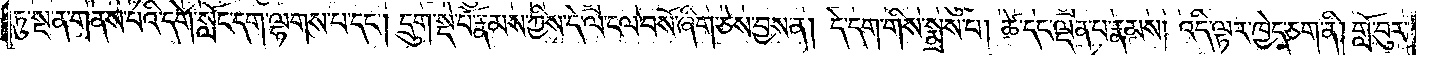ཏུ་སྔ་ན་གནས་པའི་དགེ་སློང་དག་ལྷགས་པ་དང༌། དྲུག་སྡེ་པོ་རྣམས་ཀྱིས་དེ་ལ་ངལ་བསོ་ཞིག་ཅེས་བྱས་ན། དེ་དག་གིས་སྨྲས་པ། ཚེ་དང་ལྡན་པ་རྣམས། འདི་ལྟར་ཁྱེད་ཅག་ནི། གློ་བུར་
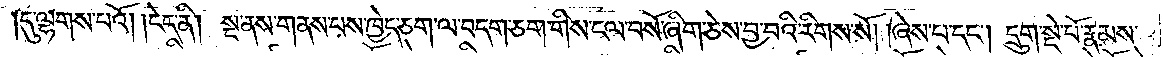དུ་ལྷགས་པའོ། །ངེད་ནི། སྔ་ནས་གནས་པས་ཁྱེད་ཅག་ལ་བདག་ཅག་གིས་ངལ་བསོ་ཞིག་ཅེས་བྱ་བའི་རིགས་སོ། །ཞེས་པ་དང༌། དྲུག་སྡེ་པོ་རྣམས་
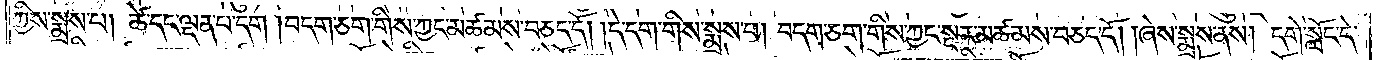ཀྱིས་སྨྲས་པ། ཚེ་དང་ལྡན་པ་དག །བདག་ཅག་གིས་ཀྱང་མཚམས་བཅད་དོ། །དེ་དག་གིས་སྨྲས་པ། བདག་ཅག་གིས་ཀྱང་སྔར་མཚམས་བཅད་དོ། །ཞེས་སྨྲས་ནས། དགེ་སློང་དེ་
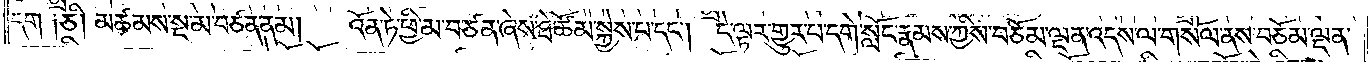དག ༑ཅི། མཚམས་སྔ་མ་བཙན་ནམ། འོན་ཏེ་ཕྱི་མ་བཙན་ཞེས་ཐེ་ཚོམ་སྐྱེས་པ་དང༌། དེ་ལྟར་གྱུར་པ་དགེ་སློང་རྣམས་ཀྱིས་བཅོམ་ལྡན་འདས་ལ་གསོལ་ནས་བཅོམ་ལྡན་
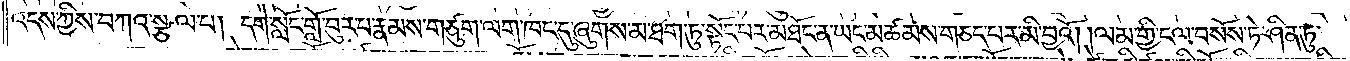འདས་ཀྱིས་བཀའ་སྩལ་པ། དགེ་སློང་གློ་བུར་པ་རྣམས་གཙུག་ལག་ཁང་དུ་ཞུགས་མ་ཐག་ཏུ་སྟོང་པར་མཐོང་ན་ཡང་མཚམས་གཅད་པར་མི་བྱའོ། །ལམ་གྱི་ངལ་བསོས་ཏེ་ཤིན་ཏུ་
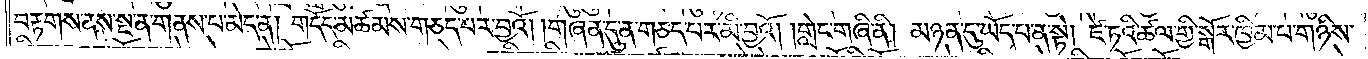བརྟགས་ནས་སྔ་ན་གནས་པ་མེད་ན། གདོད་མཚམས་གཅད་པར་བྱའོ། །གཞན་དུ་ན་གཅད་པར་མི་བྱའོ། །གླེང་གཞི་ནི། མཉན་དུ་ཡོད་པ་ན་སྟེ། ཛེ་ཏའི་ཚལ་གྱི་སྒོར་ཁྱིམ་པ་གཉིས་
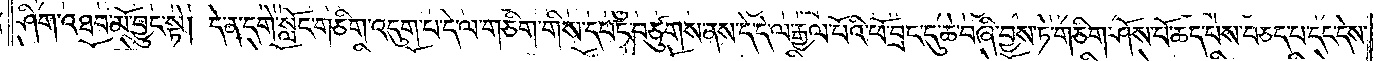ཤིག་འཐབ་མོ་བྱུང་སྟེ། དེ་ན་དགེ་སློང་གཅིག་འདུག་པ་དེ་ལ་གཅིག་གིས་དཔང་བཙུགས་ནས་དེ་དེ་ལ་རྒྱལ་པོའི་ཕོ་བྲང་དུ་ཆེ་བཞི་བྱས་ཏེ་གཅིག་ཤོས་པོ་ཆད་པས་བཅད་པ་དང་དེས་
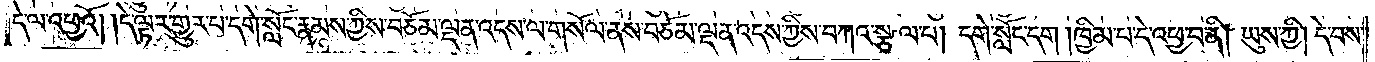དེ་ལ་འཕྱའོ། །དེ་ལྟར་གྱུར་པ་དགེ་སློང་རྣམས་ཀྱིས་བཅོམ་ལྡན་འདས་ལ་གསོལ་ནས་བཅོམ་ལྡན་འདས་ཀྱིས་བཀའ་སྩལ་པ། དགེ་སློང་དག །ཁྱིམ་པ་དེ་འཕྱ་བ་ནི། ཡུས་ཀྱི། དེ་བས་
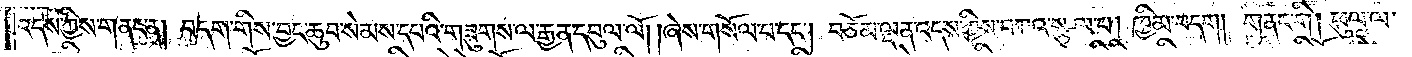འདས་ཀྱིས་གནང་ན། བདག་གིས་བྱང་ཆུབ་སེམས་དཔའི་གཟུགས་ལ་རྒྱན་དབུལ་ལོ། །ཞེས་གསོལ་པ་དང༌། བཅོམ་ལྡན་འདས་ཀྱིས་བཀའ་སྩལ་པ། ཁྱིམ་བདག །གནང་གི། ཕུལ་ལ་
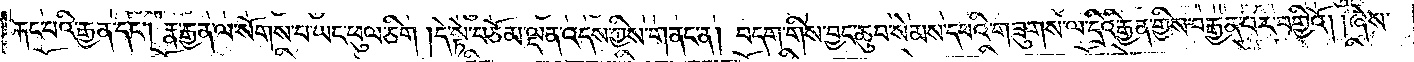རྐང་པའི་རྒྱན་དང༌། རྣ་རྒྱན་ལ་སོགས་པ་ཡང་ཕུལ་ཅིག །དེ་སྟེ་བཅོམ་ལྡན་འདས་ཀྱིས་གནང་ན། བདག་གིས་བྱང་ཆུབ་སེམས་དཔའི་གཟུགས་ལ་དྲིའི་རྒྱན་གྱིས་བརྒྱན་པར་བགྱིའོ། །ཞེས་
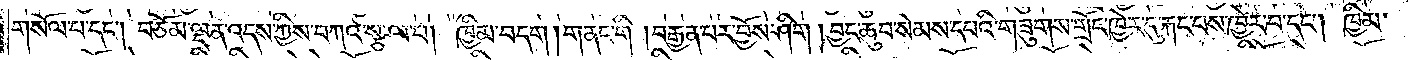གསོལ་པ་དང༌། བཅོམ་ལྡན་འདས་ཀྱིས་བཀའ་སྩལ་པ། ཁྱིམ་བདག །གནང་གི །བརྒྱན་པར་ཤོས་ཤིག །བྱང་ཆུབ་སེམས་དཔའི་གཟུགས་གྲོང་ཁྱེར་དུ་རྐང་པས་ཁྱེར་བ་དང༌། ཁྱིམ་
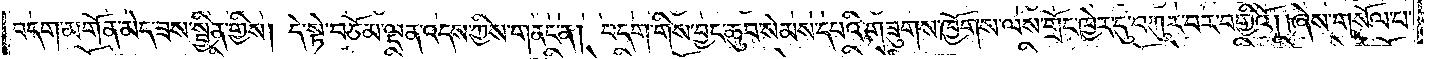བདག་མགོན་མེད་ཟས་སྦྱིན་གྱིས། དེ་སྟེ་བཅོམ་ལྡན་འདས་ཀྱིས་གནང་ན། བདག་གིས་བྱང་ཆུབ་སེམས་དཔའི་གཟུགས་ཁྱོགས་ལས་གྲོང་ཁྱེར་དུ་བཀུར་བར་བགྱིའོ། །ཞེས་གསོལ་པ་
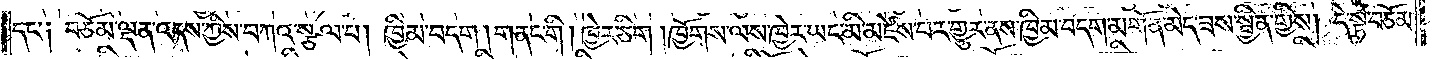དང་༑ བཅོམ་ལྡན་འདས་ཀྱིས་བཀའ་སྩལ་པ། ཁྱིམ་བདག །གནང་གི །ཁྱེར་ཅིག །ཁྱོགས་ལས་ཁྱེར་ཡང་མི་མཛེས་པར་གྱུར་ནས་ཁྱིམ་བདག་མགོན་མེད་ཟས་སྦྱིན་གྱིས། དེ་སྟེ་བཅོམ་
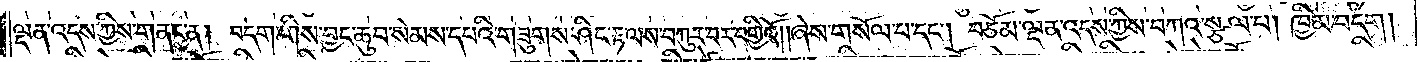ལྡན་འདས་ཀྱིས་གནང་ན། བདག་གིས་བྱང་ཆུབ་སེམས་དཔའི་གཟུགས་ཤིང་རྟ་ལས་བཀུར་བར་བགྱིའོ། །ཞེས་གསོལ་པ་དང༌། བཅོམ་ལྡན་འདས་ཀྱིས་བཀའ་སྩལ་པ། ཁྱིམ་བདག།
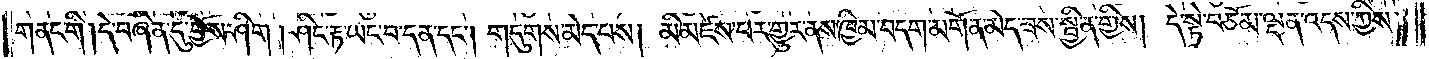གནང་གི །དེ་བཞིན་དུ་བྱོས་ཤིག །ཤིང་རྟ་ཡང་བ་དན་དང༌། གདུགས་མེད་པས། མི་མཛེས་པར་གྱུར་ནས་ཁྱིམ་བདག་མགོན་མེད་ཟས་སྦྱིན་གྱིས། དེ་སྟེ་བཅོམ་ལྡན་འདས་ཀྱིས་
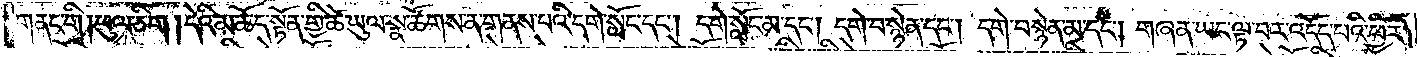གནང་གི །ཕུལ་ཅིག །དེའི་མཆོད་སྟོན་གྱི་ཚེ་ཡུལ་སྣ་ཚོགས་ན་གནས་པའི་དགེ་སློང་དང༌། དགེ་སློང་མ་དང༌། དགེ་བསྙེན་དང༌། དགེ་བསྙེན་མ་དང༌། གཞན་ཡང་ལྟ་བར་འདོད་པའི་ཕྱིར་
